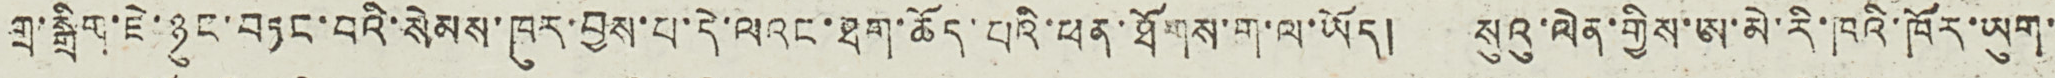གྲ་སྒྲིག་ཇེ་ཉུང་བཏང་བའི་སེམས་ཁུར་བྱས་པ་དེ་ལའང་ཐག་ཆོད་པའི་ཕན་ཐོགས་ག་ལ་ཡོད། སུའུ་ལེན་གྱིས་ཨ་མེ་རི་ཁའི་ཁོར་ཡུག་
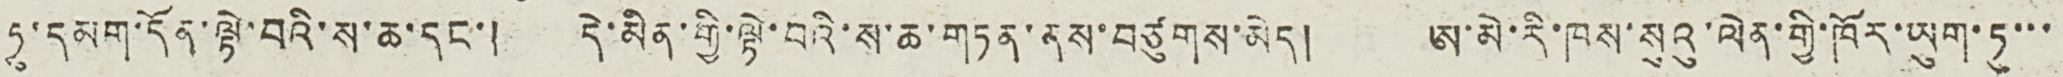ཏུ་དམག་དོན་ལྟེ་བའི་ས་ཆ་དང་། དེ་མིན་གྱི་ལྟེ་བའི་ས་ཆ་གཏན་ནས་བཙུགས་མེད། ཨ་མེ་རི་ཁས་སུའུ་ལེན་གྱི་ཁོར་ཡུག་ཏུ་་་
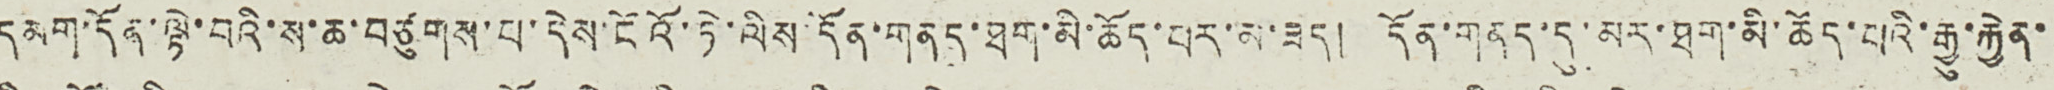དམག་དོན་ལྟེ་བའི་ས་ཆ་བཙུགས་པ་དེས་ངོའོ་ཏེ་ལིས་དོན་གནད་ཐག་མི་ཆོད་པར་མ་ཟད། དོན་གནད་དུ་མར་ཐག་མི་ཆོད་པའི་རྒྱུ་རྐྱེན་
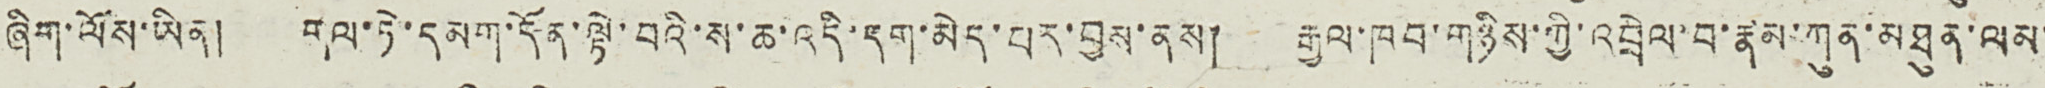ཞིག་ལོས་ཡིན། གལ་ཏེ་དམག་དོན་ལྟེ་བའི་ས་ཆ་འདི་དག་མེད་པར་བྱས་ནས། རྒྱལ་ཁབ་གཉིས་ཀྱི་འབྲེལ་བ་རྣམ་ཀུན་མཐུན་ལམ་
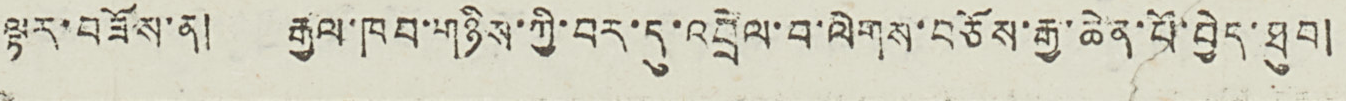ལྟར་བཟོས་ན། རྒྱལ་ཁབ་གཉིས་ཀྱི་བར་དུ་འབྲེལ་བ་ལེགས་བཅོས་རྒྱ་ཆེན་པོ་བྱེད་ཐུབ།
